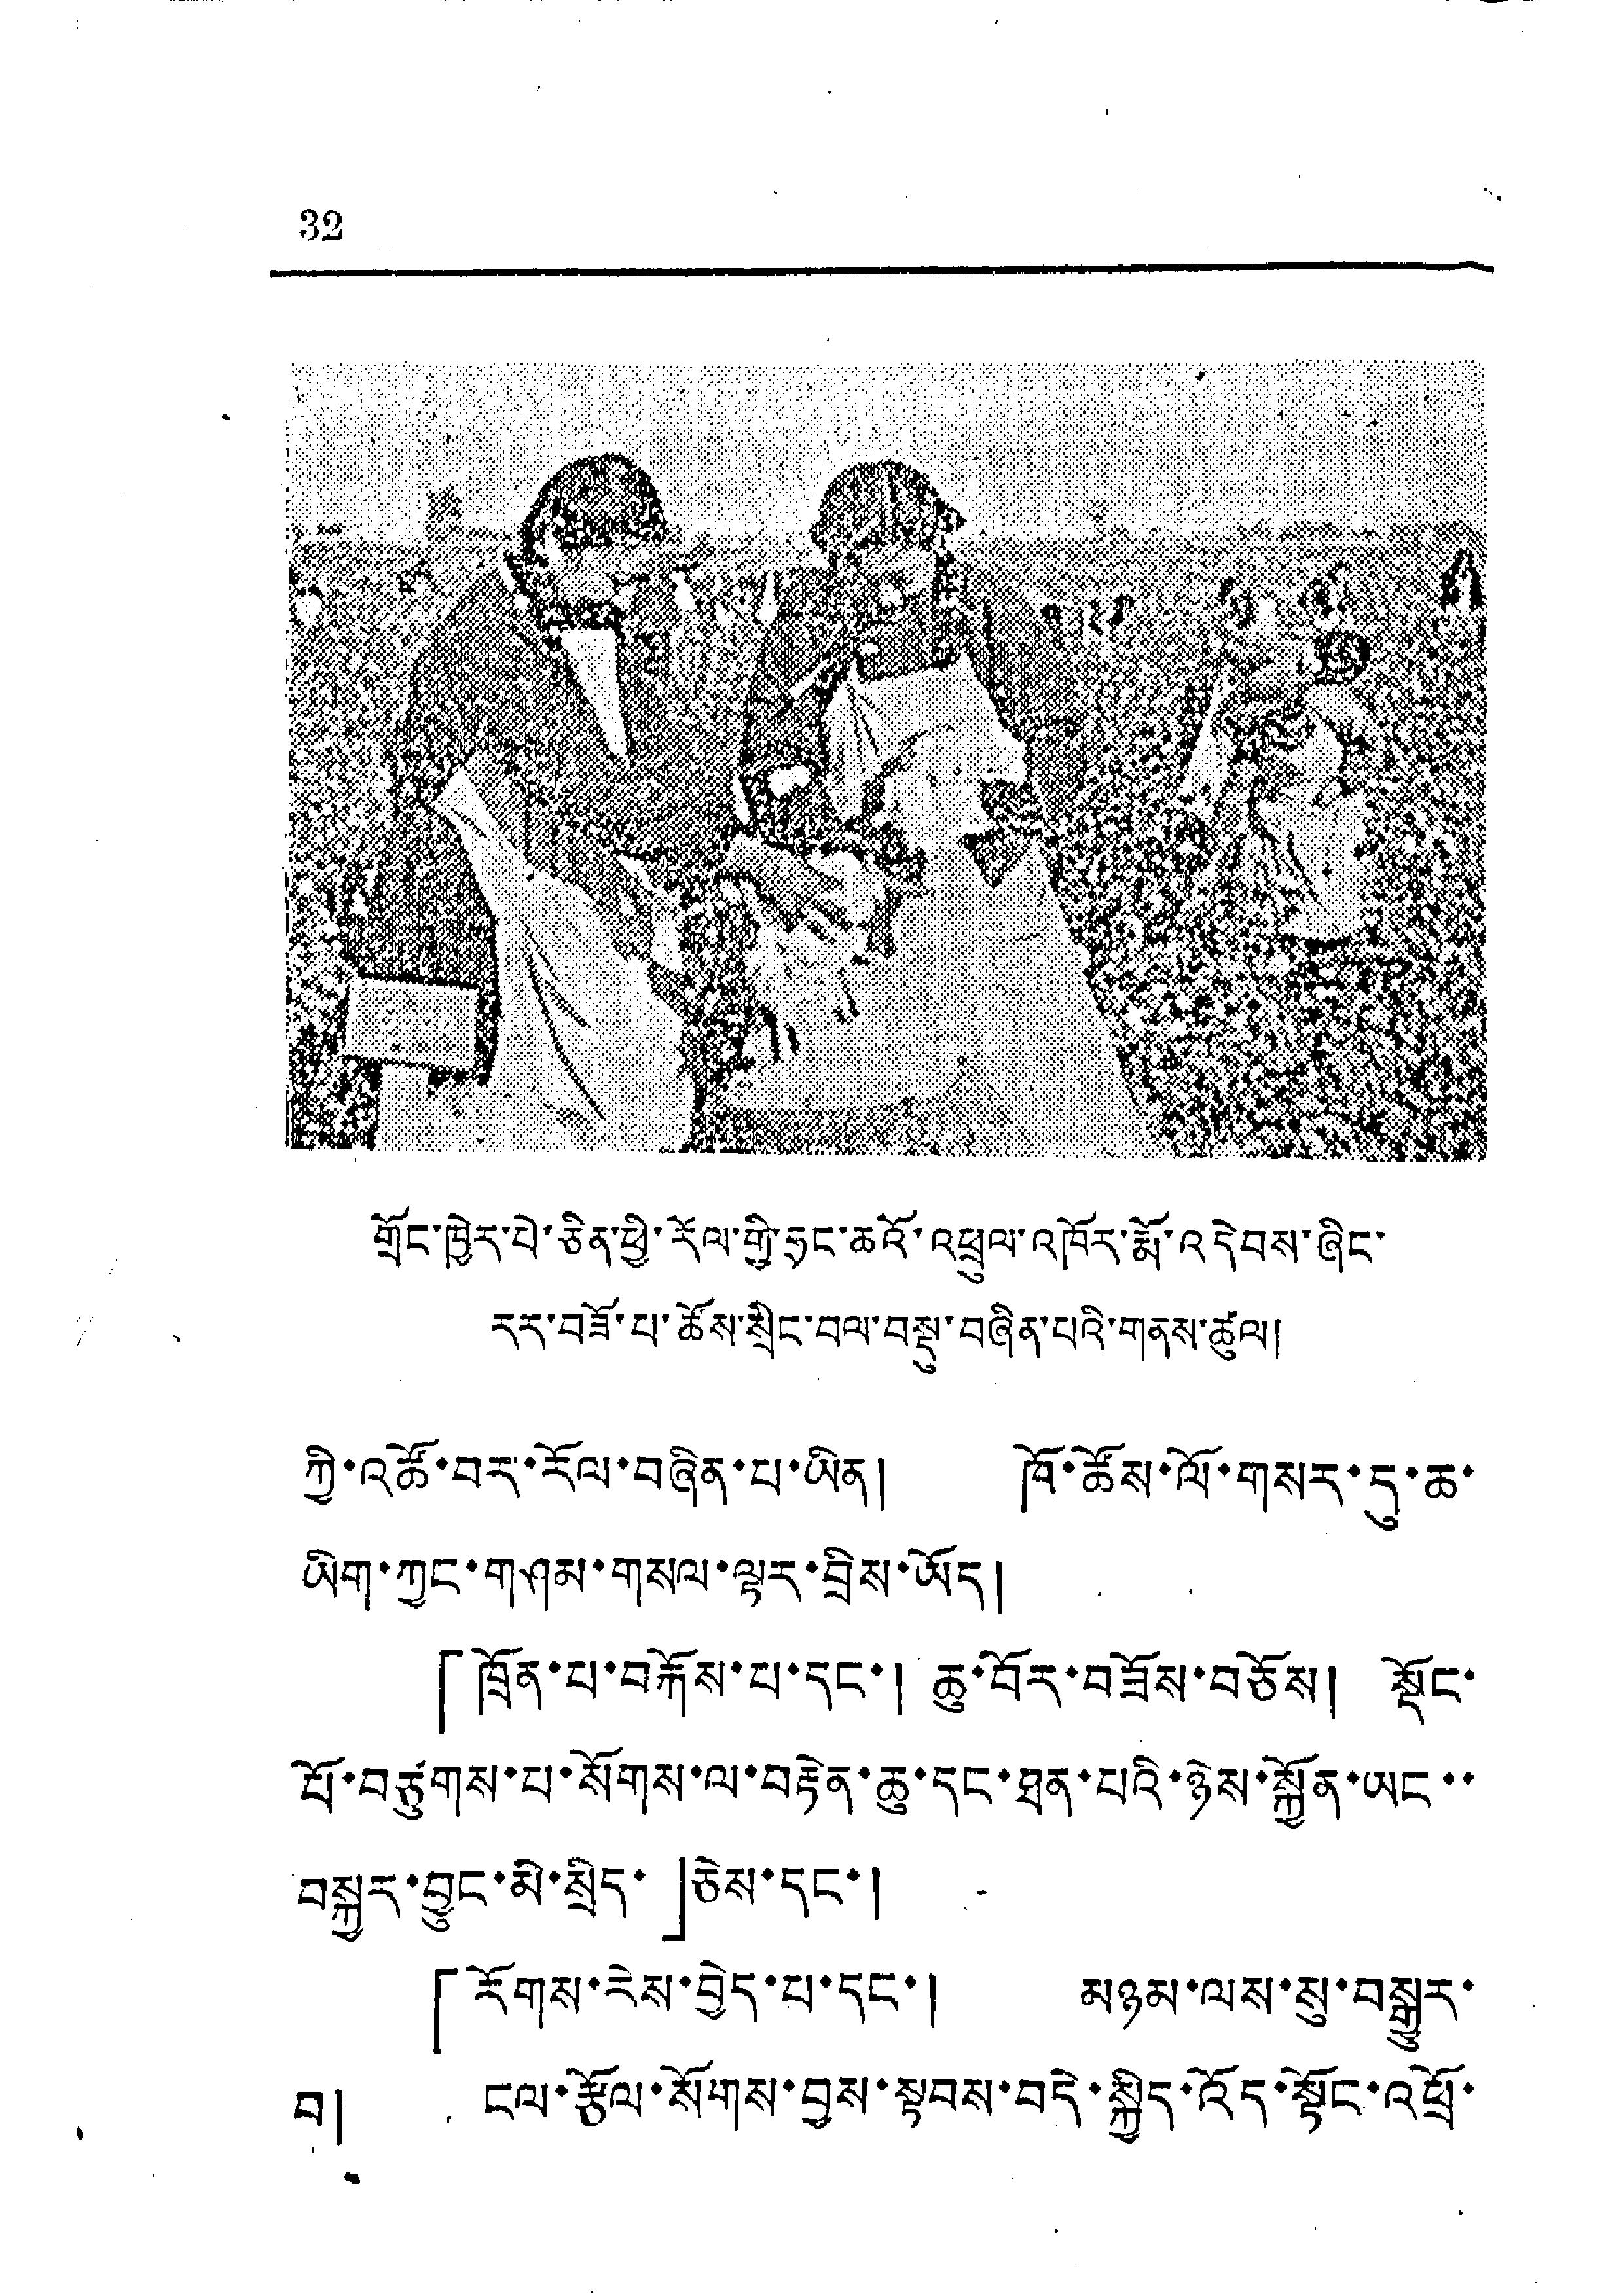32
གྲོང་ཁྱེར་པེ་ཅིན་ཕྱེ་རོལ་གྱི་ཧྲང་ཆའི་འཕྲལ་འཁོར་པོ་འདེབས་ཞིང་
རར་བཟོ་པ་ཚོས་སྲིང་བལ་བསྡུ་བཞིན་པའི་གནས་ཚུལ།
ཀྱི་འཚོ་བར་རོལ་བཞིན་པ་ཡིན། ཁོ་ཚོས་ལོ་གསར་དུ་ཆ་
ཡིག་ཀྱང་གཤམ་གསལ་ལྟར་བྲིས་ཡོད།
「ཁྲོན་པ་བརྐོས་པ་དང་། ཆུ་བོར་བཟོས་བཅོས། སྡོང་
པོ་བཙུགས་པ་སོགས་ལ་བརྟེན་ཆུ་དང་ཐན་པའི་ཉེས་སྐྱོན་ཨང་་
བསྐྱར་བྱུང་མི་སྲིད་」ཅེས་དང་།
「རོགས་རེས་བྱེད་པ་དང་། མཉམ་ལས་སུ་བསྒྱུར་
བ། ངལ་རྩོལ་སོགས་བྱས་སྟབས་བདེ་སྐྱིད་འོད་སྟོང་འཕྲོ་
